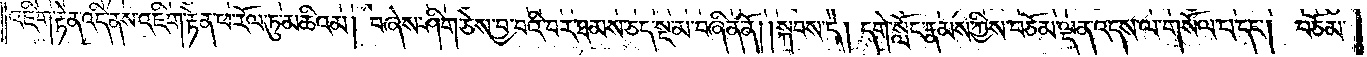འཇིག་རྟེན་འདི་ནས་འཇིག་རྟེན་ཕ་རོལ་ཏུ་མཆིའམ། བཞེས་ཤིག་ཅེས་བྱ་བའི་བར་ཐམས་ཅད་སྔ་མ་བཞིན་ནོ། །སྐབས་དེ། དགེ་སློང་རྣམས་ཀྱིས་བཅོམ་ལྡན་འདས་ལ་གསོལ་པ་དང༌། བཅོམ་
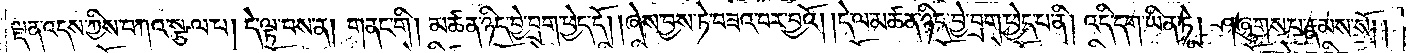ལྡན་འདས་ཀྱིས་བཀའ་སྩལ་པ། དེ་ལྟ་བས་ན། གནང་གི། མཚན་ཉིད་བྱེ་བྲག་ཕྱེད་དོ། །ཞེས་བྱས་ཏེ་བཟའ་བར་བྱའོ། །དེ་ལ་མཚན་ཉིད་བྱེ་བྲག་ཕྱེད་པ་ནི། འདི་དག་ཡིན་ཏེ། ཤ་ཞུགས་པ་རྣམས་སོ། །
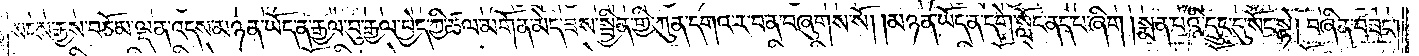སངས་རྒྱས་བཅོམ་ལྡན་འདས་མཉན་ཡོད་ན་རྒྱལ་བུ་རྒྱལ་བྱེད་ཀྱི་ཚལ་མགོན་མེད་ཟས་སྦྱིན་གྱི་ཀུན་དགའ་ར་བ་ན་བཞུགས་སོ། །མཉན་ཡོད་ན་དགེ་སློང་ནད་པ་ཞིག །སྨན་པའི་དྲུང་དུ་སོང་སྟེ། བཞིན་བཟང༌།
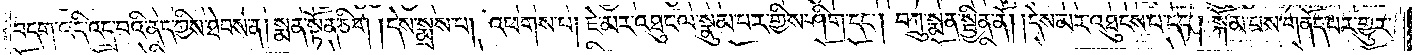བདག་འདི་འདྲ་བའི་ནད་ཀྱིས་ཐེབས་ན། སྨན་སྟོན་ཅིག །དེས་སྨྲས་པ། འཕགས་པ། ཇེ་མར་འཐུང་ལ་སྣུམ་པར་གྱིས་ཤིག་དང༌། བཀྲུ་སྨན་སྦྱིན་ནོ། །དེས་མར་འཐུངས་པ་དང༌། སྐོམ་པས་གནོད་པར་གྱུར་
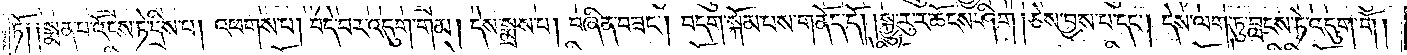ཏོ༑ ༑སྨན་པ་འོངས་ཏེ་དྲིས་པ། འཕགས་པ། བདེ་བར་འདུག་གམ། དེས་སྨྲས་པ། བཞིན་བཟང༌། བདག་སྐོམ་པས་གནོད་དོ། །སྐྱུ་རུ་ར་ཆོངས་ཤིག །ཅེས་བྱས་པ་དང༌། དེས་ལག་ཏུ་བླངས་ཏེ་འདུག་གོ །
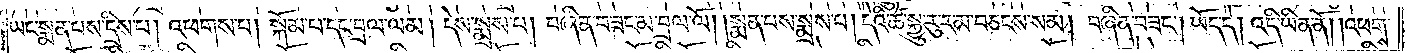ཡང་སྨན་པས་དྲིས་པ། འཕགས་པ། སྐོམ་པ་དང་བྲལ་ལམ། དེས་སྨྲས་པ། བཞིན་བཟང་མ་བྲལ་ལོ། །སྨན་པས་སྨྲས་པ། དེའི་ཚེ་སྐྱུ་རུ་ར་མ་བཅངས་སམ། བཞིན་བཟང༌། ཡོད་དེ། འདི་ཡིན་ནོ། །འཕགས་
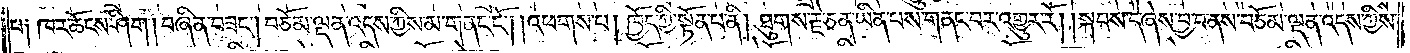པ༑ ཁར་ཆོངས་ཤིག། བཞིན་བཟང༌། བཅོམ་ལྡན་འདས་ཀྱིས་མ་གནང་ངོ༌། །འཕགས་པ། ཁྱོད་ཀྱི་སྟོན་པ་ནི། ཐུགས་རྗེ་ཅན་ཡིན་པས་གནང་བར་འགྱུར་རོ། །སྐབས་དེ་ཞེས་བྱ་བ་ནས་བཅོམ་ལྡན་འདས་ཀྱིས་
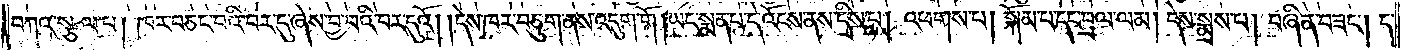བཀའ་སྩལ་པ། ཁར་བཅང་བའི་བར་དུ་ཞེས་བྱ་བའི་བར་དུའོ། །དེས་ཁར་བཅུག་ནས་འདུག་གོ །ཡང་སྨན་པ་དེ་འོངས་ནས་དྲིས་པ། འཕགས་པ། སྐོམ་པ་དང་བྲལ་ལམ། དེས་སྨྲས་པ། བཞིན་བཟང༌། ད་
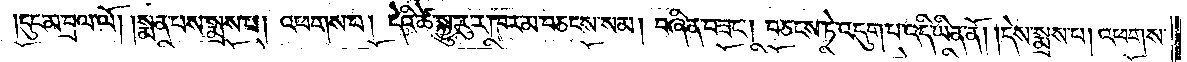།དུང་མ་བྲལ་ལོ། །སྨན་པས་སྨྲས་པ། འཕགས་པ། དེའི་ཚེ་སྐྱུ་རུ་ར་ཁར་མ་བཅངས་སམ། བཞིན་བཟང༌། བཅངས་ཏེ་འདུག་པ་འདི་ཡིན་ནོ། །དེས་སྨྲས་པ། འཕགས་
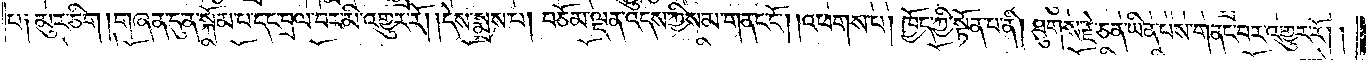པ༑ མུར་ཅིག །གཞན་དུ་ན་སྐོམ་པ་དང་བྲལ་བར་མི་འགྱུར་རོ། །དེས་སྨྲས་པ། བཅོམ་ལྡན་འདས་ཀྱིས་མ་གནང་ངོ༌། །འཕགས་པ། ཁྱོད་ཀྱི་སྟོན་པ་ནི། ཐུགས་རྗེ་ཅན་ཡིན་པས་གནང་བར་འགྱུར་རོ། །
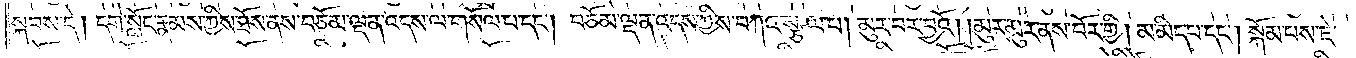སྐབས་དེ། དགེ་སློང་རྣམས་ཀྱིས་ཐོས་ནས་བཅོམ་ལྡན་འདས་ལ་གསོལ་པ་དང༌། བཅོམ་ལྡན་འདས་ཀྱིས་བཀའ་སྩལ་པ། མུར་བར་བྱའོ། །མུར་མུར་ནས་བོར་གྱི། མ་མིད་པ་དང༌། སྐོམ་པས་ཇེ་
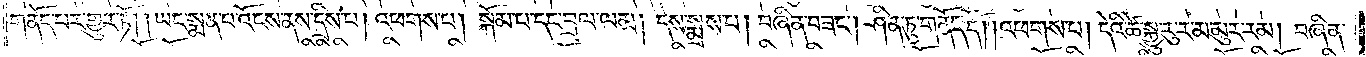གནོད་པར་གྱུར་ཏོ། །ཡང་སྨན་པ་འོངས་ནས་དྲིས་པ། འཕགས་པ། སྐོམ་པ་དང་བྲལ་ལམ། དེས་སྨྲས་པ། བཞིན་བཟང༌། ཤིན་ཏུ་གནོད་དོ། །འཕགས་པ། དེའི་ཚེ་སྐྱུ་རུ་ར་མ་མུར་རམ། བཞིན་
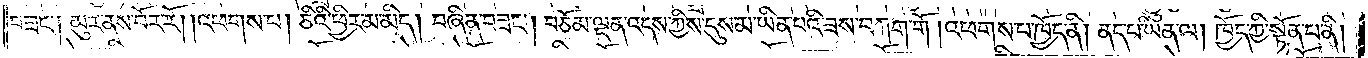བཟང༌། མུར་ནས་བོར་རོ། །འཕགས་པ། ཅིའི་ཕྱིར་མ་མིད། བཞིན་བཟང༌། བཅོམ་ལྡན་འདས་ཀྱིས་དུས་མ་ཡིན་པའི་ཟས་བཀག་གོ །འཕགས་པ་ཁྱོད་ནི། ནད་པ་ཡིན་ལ། ཁྱོད་ཀྱི་སྟོན་པ་ནི།
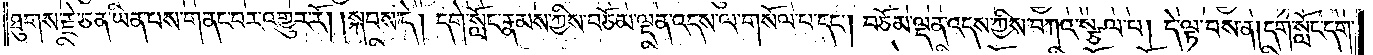ཐུགས་རྗེ་ཅན་ཡིན་པས་གནང་བར་འགྱུར་རོ། །སྐབས་དེ། དགེ་སློང་རྣམས་ཀྱིས་བཅོམ་ལྡན་འདས་ལ་གསོལ་པ་དང༌། བཅོམ་ལྡན་འདས་ཀྱིས་བཀའ་སྩལ་པ། དེ་ལྟ་བས་ན། དགེ་སློང་དག་
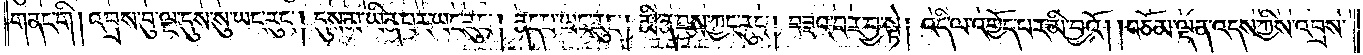གནང་གི །འབྲས་བུ་ལྔ་དུས་སུ་ཡང་རུང༌། དུས་མ་ཡིན་པར་ཡང་རུང༌། ནད་པ་ཡང་རུང༌། མི་ན་བས་ཀྱང་རུང༌། བཟའ་བར་བྱ་སྟེ། འདི་ལ་འགྱོད་པར་མི་བྱའོ། །བཅོམ་ལྡན་འདས་ཀྱིས་འབྲས་
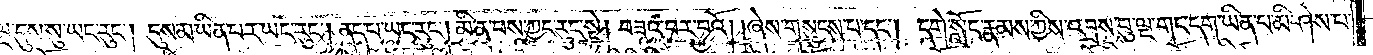བུ་ལྔ་དུས་སུ་ཡང་རུང༌། དུས་མ་ཡིན་པར་ཡང་རུང༌། ནད་པ་ཡང་རུང༌། མི་ན་བས་ཀྱང་རུང་སྟེ། བཟའ་བར་བྱའོ། །ཞེས་གསུངས་པ་དང༌། དགེ་སློང་རྣམས་ཀྱིས་འབྲས་བུ་ལྔ་གང་དག་ཡིན་པ་མི་ཤེས་པ་
